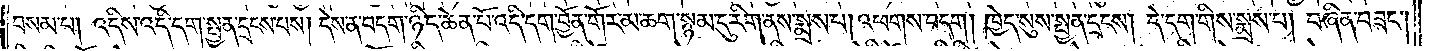བསམ་པ། འདིས་འདི་དག་སྤྱན་དྲངས་པས། དེས་ན་བདག་ཉིད་ཆེན་པོ་འདི་དག་བྱོན་གོར་མ་ཆག་སྙམ་དུ་རིག་ནས་སྨྲས་པ། འཕགས་བདག། ཁྱེད་སུས་སྤྱན་དྲངས། དེ་དག་གིས་སྨྲས་པ། བཞིན་བཟང༌།
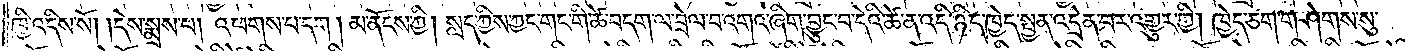ཁྱི་འདིས་སོ། །དེས་སྨྲས་པ། འཕགས་པ་དག །མ་ནོངས་ཀྱི། སླད་ཀྱིས་ཀྱང་གང་གི་ཚེ་བདག་ལ་བྲེལ་བ་འགའ་ཞིག་བྱུང་བ་དེའི་ཚེ་ན་འདི་ཉིད་ཁྱེད་སྤྱན་འདྲེན་པར་འགྱུར་གྱི། ཁྱེད་ཅག་གཤེགས་སུ་
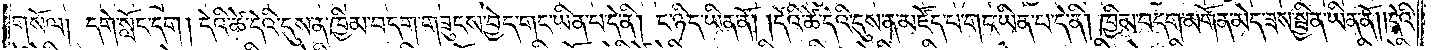གསོལ། དགེ་སློང་དག། དེའི་ཚེ་དེའི་དུས་ན་ཁྱིམ་བདག་གཟུངས་བྱེད་གང་ཡིན་པ་དེ་ནི། ང་ཉིད་ཡིན་ནོ། །དེའི་ཚེ་དེའི་དུས་ན་མཛོད་པ་གང་ཡིན་པ་དེ་ནི། ཁྱིམ་བདག་མགོན་མེད་ཟས་སྦྱིན་ཡིན་ནོ༎དེའི་
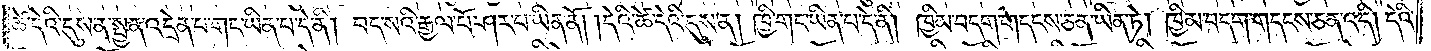ཚེ་དེའི་དུས་ན་སྤྱན་འདྲེན་པ་གང་ཡིན་པ་དེ་ནི། བད་སའི་རྒྱལ་པོ་ཤར་པ་ཡིན་ནོ། །དེའི་ཚེ་དེའི་དུས་ན། ཁྱི་གང་ཡིན་པ་དེ་ནི། ཁྱིམ་བདག་གདངས་ཅན་ཡིན་ཏེ། ཁྱིམ་བདག་གདངས་ཅན་འདི། དེའི་
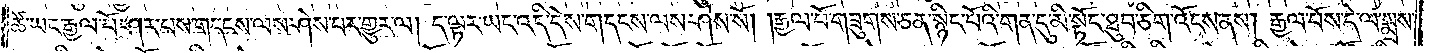ཚེ་ཡང་རྒྱལ་པོ་ཤར་པས་གདངས་ལས་ཤེས་པར་གྱུར་ལ། ད་ལྟར་ཡང་འདི་དེས་གདངས་ལས་ཤེས་སོ། །རྒྱལ་པོ་གཟུགས་ཅན་སྙིང་པོའི་གན་དུ་མི་སྟོང་ཐུབ་ཅིག་འོངས་ནས། རྒྱལ་པོས་དེ་ལ་སྨྲས་
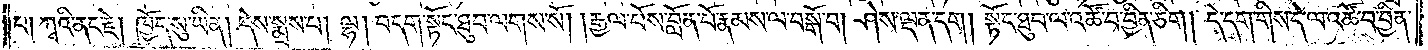པ། ཀྭའི་ནང་རྗེ། ཁྱོད་སུ་ཡིན། དེས་སྨྲས་པ། ལྷ། བདག་སྟོང་ཐུབ་ལགས་སོ། །རྒྱལ་པོས་བློན་པོ་རྣམས་ལ་བསྒོ་བ། ཤེས་ལྡན་དག །སྟོང་ཐུབ་ལ་འཚོ་བ་བྱིན་ཅིག། དེ་དག་གིས་དེ་ལ་འཚོ་བ་བྱིན་
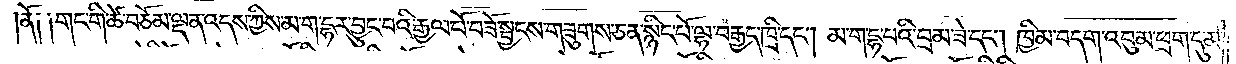།ནོ༑ ༑གང་གི་ཚེ་བཅོམ་ལྡན་འདས་ཀྱིས་མ་ག་དྷར་བྱུང་བའི་རྒྱལ་པོ་བཟོ་སྦྱངས་གཟུགས་ཅན་སྙིང་པོ་ལྷ་བརྒྱད་ཁྲི་དང༌། མ་ག་དྷ་བའི་བྲམ་ཟེ་དང༌། ཁྱིམ་བདག་འབུམ་ཕྲག་དུ་མ་
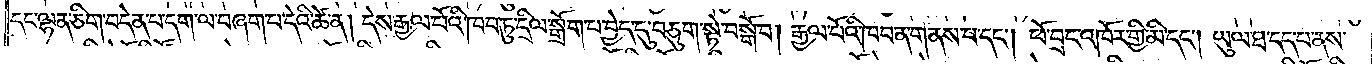དང་ལྷན་ཅིག་བདེན་པ་དག་ལ་བཞག་པ་དེའི་ཚེ་ན། དེས་རྒྱལ་པོའི་ཁབ་ཏུ་དྲིལ་སྒྲོག་པ་བྱེད་དུ་བཅུག་སྟེ་བསྒོ་བ། རྒྱལ་པོའི་ཁབ་ན་གནས་པ་དང༌། ཕོ་བྲང་འཁོར་གྱི་མི་དང༌། ཡུལ་ཐ་དད་པ་ནས་
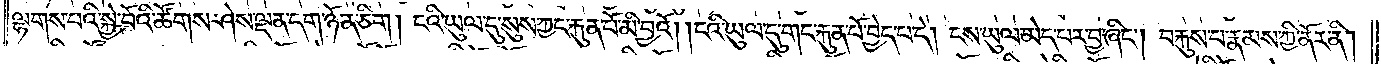ལྷགས་པའི་སྐྱེ་བོའི་ཚོགས་ཤེས་ལྡན་དག་ཉོན་ཅིག །ངའི་ཡུལ་དུ་སུས་ཀྱང་རྐུན་པོ་མི་བྱའོ། །ངའི་ཡུལ་དུ་གང་རྐུན་པོ་བྱེད་པ་དེ། ངས་ཡུལ་མེད་པར་བྱ་ཞིང༌། བརྐུས་པ་རྣམས་ཀྱི་ནོར་ནི།
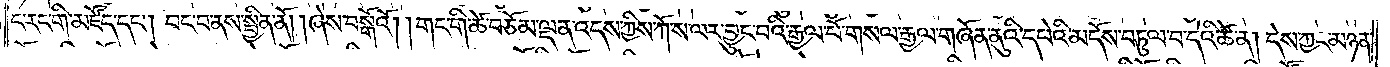ང་རང་གི་མཛོད་དང༌། བང་བ་ནས་སྦྱིན་ནོ། །ཞེས་བསྒོའོ། །གང་གི་ཚེ་བཅོམ་ལྡན་འདས་ཀྱིས་ཀོ་ས་ལར་བྱུང་བའི་རྒྱལ་པོ་གསལ་རྒྱལ་གཞོན་ནུའི་དཔེའི་མདོས་བཏུལ་བ་དེའི་ཚེ་ན། དེས་ཀྱང་མཉན་
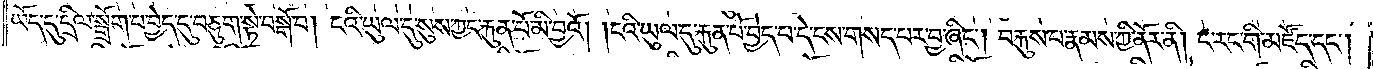ཡོད་དུ་དྲིལ་སྒྲོག་པ་བྱེད་དུ་བཅུག་སྟེ་བསྒོ་བ། ངའི་ཡུལ་དུ་སུས་ཀྱང་རྐུན་པོ་མི་བྱའོ། །ངའི་ཡུལ་དུ་རྐུན་པོ་བྱེད་པ་དེ་ངས་གསད་པར་བྱ་ཞིང༌། བརྐུས་པ་རྣམས་ཀྱི་ནོར་ནི། ང་རང་གི་མཛོད་དང༌།
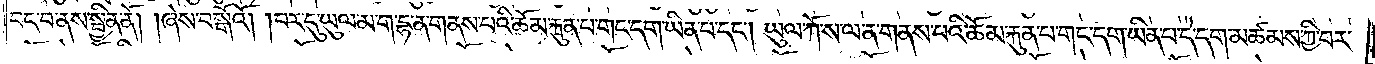བང་བ་ནས་སྦྱིན་ནོ། །ཞེས་བསྒོའོ། །བར་དུ་ཡུལ་མ་ག་དྷ་ན་གནས་པའི་ཆོམ་རྐུན་པ་གང་དག་ཡིན་པ་དང༌། ཡུལ་ཀོ་ས་ལ་ན་གནས་པའི་ཆོམ་རྐུན་པ་གང་དག་ཡིན་པ་དེ་དག་མཚམས་ཀྱི་བར་
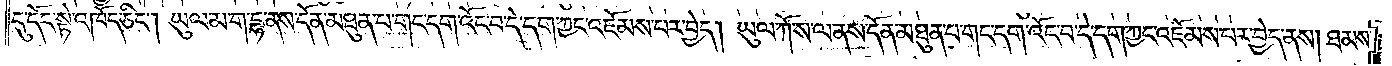དུ་དོང་སྟེ་འཁོད་ཅིང༌། ཡུལ་མ་ག་དྷ་ནས་དོན་མཐུན་པ་གང་དག་འོང་བ་དེ་དག་ཀྱང་འཇོམས་པར་བྱེད། ཡུལ་ཀོ་ས་ལ་ནས་དོན་མཐུན་པ་གང་དག་འོང་བ་དེ་དག་ཀྱང་འཇོམས་པར་བྱེད་ནས། ཐམས་
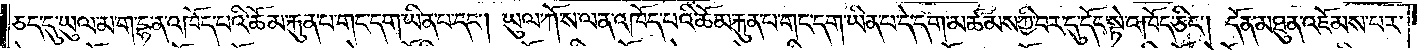ཅད་དུ་ཡུལ་མ་ག་དྷ་ན་འཁོད་པའི་ཆོམ་རྐུན་པ་གང་དག་ཡིན་པ་དང༌། ཡུལ་ཀོ་ས་ལ་ན་འཁོད་པའི་ཆོམ་རྐུན་པ་གང་དག་ཡིན་པ་དེ་དག་མཚམས་ཀྱི་བར་དུ་དོང་སྟེ་འཁོད་ཅིང༌། དོན་མཐུན་འཇོམས་པར་
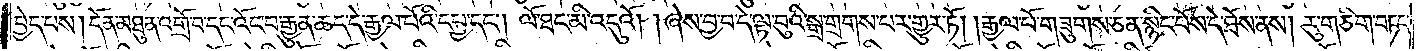བྱེད་པས། དོན་མཐུན་འགྲོ་བ་དང་འོང་བ་རྒྱུན་ཆད་དེ་རྒྱལ་པོའི་དཔྱ་དང༌། ལོ་ཐང་མི་འདུའོ། །ཞེས་བྱ་བ་དེ་ལྟ་བུའི་སྒྲ་གྲགས་པར་གྱུར་ཏོ། །རྒྱལ་པོ་གཟུགས་ཅན་སྙིང་པོས་དེ་ཐོས་ནས། རུ་གཅིག་བཏང་
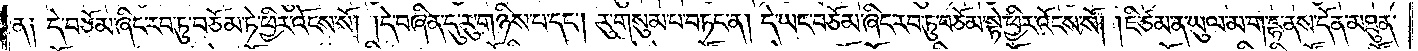ན༑ དེ་བཅོམ་ཞིང་རབ་ཏུ་བཅོམ་ཏེ་ཕྱིར་འོངས་སོ། །དེ་བཞིན་དུ་རུ་གཉིས་པ་དང༌། རུ་གསུམ་པ་བཏང་ན། དེ་ཡང་བཅོམ་ཞིང་རབ་ཏུ་བཅོམ་སྟེ་ཕྱིར་འོངས་སོ། །ཇི་ཙམ་ན་ཡུལ་མ་ག་དྷ་ནས་དོན་མཐུན་
